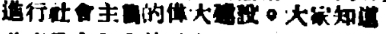進行社會主義的偉大建設。大家知道，
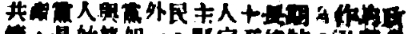共產黨人與黨外民主人士長期合作的政
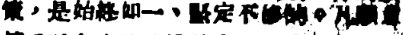策，是始終如一、堅定不移的。凡願意
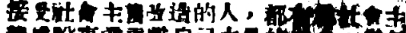接受社會主義改造的人，都有爲社會主
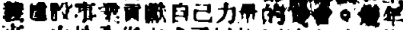義建設事業貢獻自己力量的機會。幾年
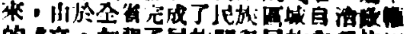來，由於全省完成了民族區域自治政權
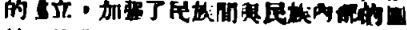的建立，加強了民族間與民族內部的團
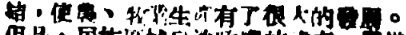結，使農、牧業生產有了很大的發展。
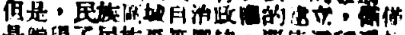但是，民族區域自治政權的建立，僅僅
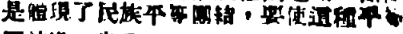是體現了民族平等團結，要使這種平等
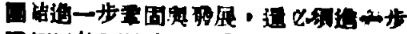團結進一步鞏固與發展，還必須進一步
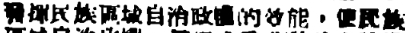發揮民族區域自治政權的效能，使民族
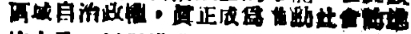區域自治政權，眞正成爲推動社會前進
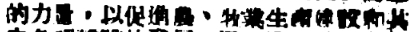的力量，以促進農、牧業生產建設和其
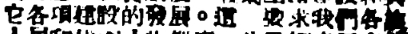它各項建設的發展。這就要求我們各族
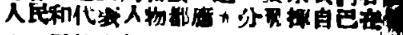人民和代表人物都應充分發揮自己在處
